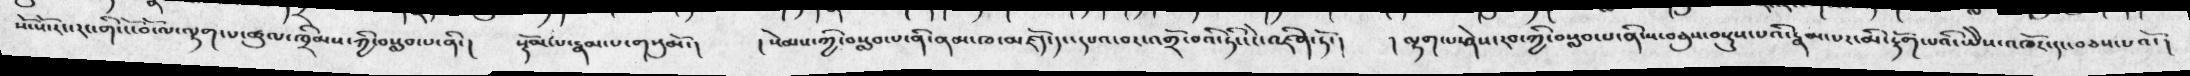སོ་སཔ་རང་གི་ངོ་བོ་ལ་ལྷག་པ་ཚུལ་ཁྲིམས་ཀྱི་བསླབ་པ་ནི་།    སྡོམ་པ་རྣམ་པ་གསུམོ་།   ། སེམས་གྱི་བསླབ་པ་ནི་ནམ་ཁ་མཛོད་དང་དཔའ་བར་འགྲོ་བའི་ཏིང་ངེ་འཛིན་ཏོ་།   ། ལྷག་པ་ཤེས་རབ་གྱི་བསླབ་པ་ནི་ས་བཅུས་བསྡུས་པའི་རྣམ་པར་མི་རྟོག་པའི་ཡེེས་འཁོར་དང་བཅས་པའོ་།
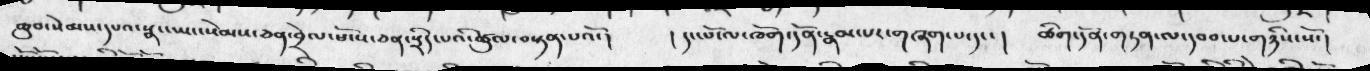ཆུབ་སེམས་དཔའ་སྣང་ཡང་སེམས་ཅན་བྲེལ་ཕོངས་ཅན་སྲིད་པའི་ཚུལ་བསྟན་པའོ་།  ། དང་པོ་ལ་ཁོག་དོན་རྣམ་པར་གཞག་པ་དང་།   ཚིག་དོན་གཏན་ལ་དབབ་པ་གནིས་སོ་།
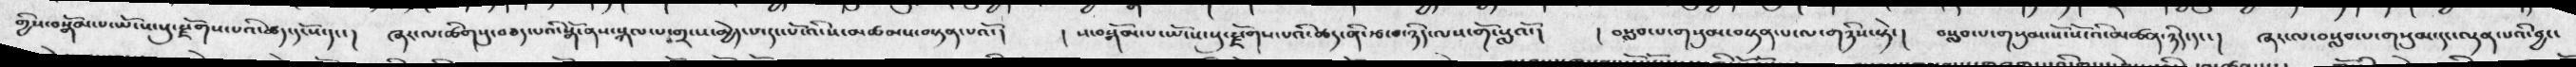གྱིས་བསྒོམ་པ་ཡོངས་སུ་རྫོགས་པའི་ཚད་དངོས་དང་།   ཞར་ལ་ཚིགསུ་བཅད་པའི་སྒོ་ནས་སྐལ་པ་གྲངས་མྱེད་པ་དང་པོ་འི་ས་མཚམས་བསྟན་པའོ་།   ། ས་བསྒོམ་པ་ཡོངས་སུ་རྫོགས་པའི་ཚད་ནི་རྩ་བ་ཉིད་ལས་གོ་སླའོ་།  ། བསླབ་པ་གསུམ་བསྟན་པ་ལ་གཉིས་སྟེ་།   བསླབ་པ་གསུམ་སོ་སོ་འི་མཚན་ཉིད་དང་།  ཞར་ལ་བསླབ་པ་གསུམ་དང་ལྡན་པའི་བྱ་་
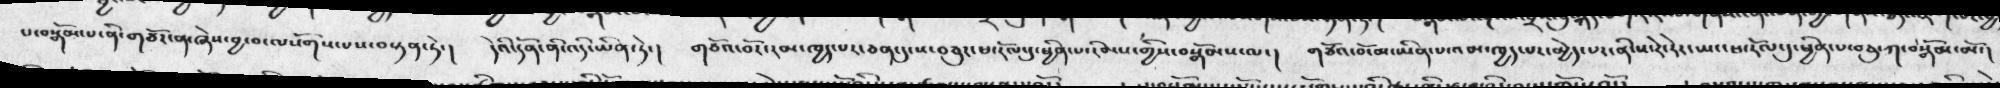པ་བསྒོམ་པ་ནི་གཙོར་ན་ཞེས་བྱ་བ་ལསོགས་པས་བསྟན་ཏེ་།  དེའི་དོན་ནི་འདི་ཡིན་ཏེ་།  གཙོ་བོར་རམ་ཁྱད་པར་ཅན་དུ་ས་བཅུར་ཕ་རོལ་དུ་ཕྱིན་པ་རིམས་གྱིས་བསྒོམས་ལ་།   གཙོ་བོ་མ་ཡིན་པའམ་ཁྱད་པར་མྱེད་པར་ནི་ས་རེ་རེར་ཡང་ཕ་རོལ་དུ་ཕྱིན་པ་བཅུ་ཀ་བསྒོམ་མོ་།
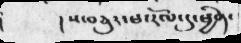།ས་བཅུར་ཕ་རོལ་དུ་ཕྱིན་
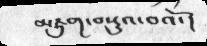མཇུག་བསྡུའ་བའོ་།
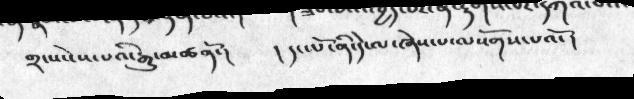གྲངས་ངེས་པའི་རྒྱུ་མཚནོ་།  ། དང་པོ་ནི་དེ་ལ་ཞེས་པ་ལསོགས་པའོ།
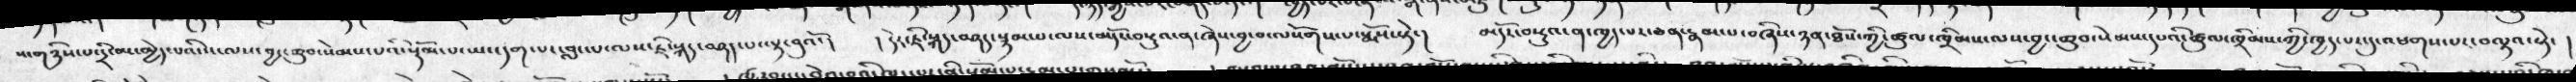ས་གཉིས་པ་དྲི་མ་མྱེད་པའི་ས་ལས་བྱང་ཆུབ་སེམས་པའི་སྡོམ་པ་ཡང་དག་པར་བླང་པ་ལས་ཇི་སྐད་བཤད་པ་ལྟ་བུའོ་།  ། དེར་ཇི་སྐད་བཤད་སྙམ་པ་ལས་མདོར་བསྡུས་ན་ཞེས་བྱ་བ་ལསོགས་པ་སྨོས་སྟེ་།  མདོར་བསྡུའ་ན་ཁྱད་པར་ཅན་རྣམ་པ་བཞིས་ཉན་ཐོས་ཀྱི་ཚུལ་ཁྲིམས་ལས་བྱང་ཆུབ་སེམས་དཔའི་ཚུལ་ཁྲིམས་ཀྱི་ཁྱད་པར་དུ་འཕགས་པར་བལྟའ་སྟེ་  །
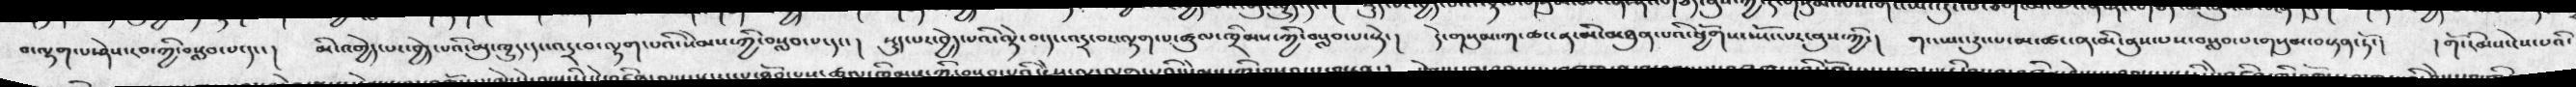བ་ལྷག་པ་ཤེས་རབ་ཀྱི་བསླབ་པ་དང་།  མི་འགྱེད་པར་བྱེད་པའི་མུ་ཁྱུད་དང་འདྲ་བ་ལྷག་པའི་སེམས་ཀྱ་བསླབ་པ་དང་།  སྡུད་པར་བྱེད་པའི་ལྟེ་བ་དང་འདྲ་བར་ལྷག་པ་ཚུལ་ཁྲིམས་ཀྱི་བསླབ་པ་སྟེ་།  དེ་གསུམ་ཀ་ཚང་ན་མི་མཐུན་པའི་ཕྱོགས་སྤོང་པར་ནུས་ཀྱི་།  གང་ཡང་རུང་པ་མ་ཚང་ན་མི་ནུས་པས་བསླབ་པ་གསུམ་བསྟན་ཏོ་།  ། གོ་རིམ་ངེས་པའི་
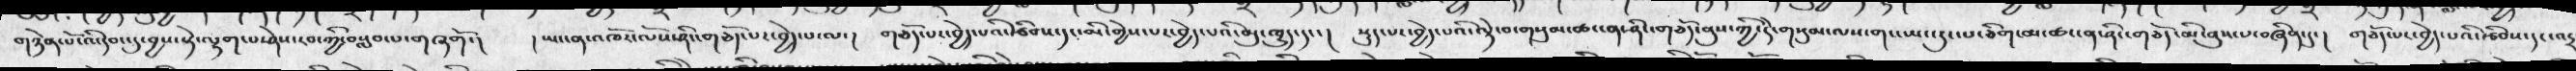གཉེན་པོ་འི་དབང་དུ་བྱས་སྟེ་ལྷག་པ་ཤེས་རབ་ཀྱི་བསླབ་པ་གཞགོ་།  ། ཡང་ན་འཁོར་ལོས་ཤིང་གཅོད་པར་བྱེད་པ་ལ་། གཅོད་པར་བྱེད་པའི་རྩིབས་དང་མི་གྱེས་པར་བྱེད་པའི་མུ་ཁྱུད་དང་།  སྡུད་པར་བྱེད་པའི་ལྟེ་བ་གསུམ་ཚང་ན་ནི་གཅོད་ནུས་ཀྱི་དེ་གསུམ་ལས་གང་ཡང་རུང་པ་ཅིག་མ་ཚང་ན་ནི་གཅོད་མི་ནུས་པ་བཞིན་དུ་།   གཅོད་པར་བྱེད་པའི་རྩིབས་དང་འདྲ
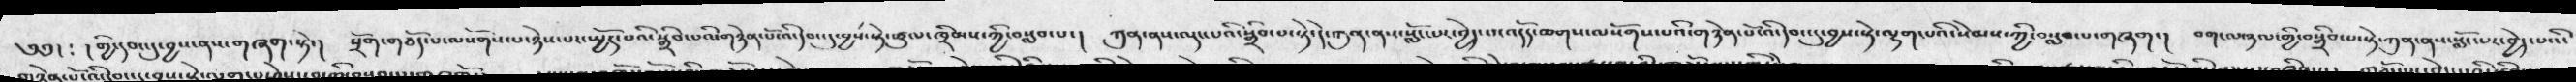༄༅།  ༴  ། གྱི་དབང་དུ་བྱས་ནས་གཞག་སྟེ་།   སྲོག་གཅོད་པ་ལ་ལསོགས་པ་ཉེས་པར་སྤྱོད་པའི་སྒྲིབ་པའི་གཉེན་པོ་འི་དབང་དུ་བྱས་སྟེ་ཚུལ་ཁྲིམས་ཀྱི་བསླབ་པ་།  ཀུན་ནས་ལྡང་པའི་སྒྲིབ་པ་སྟེ་དེ་ཀུན་ནས་སློང་པར་བྱེད་པ་འདོད་ཆགས་ལསོགས་པའི་གཉེན་པོ་འི་དབང་དུ་བྱས་སྟེ་ལྷག་པའི་སེམས་ཀྱི་བསླབ་པ་གཞག་།   བག་ལ་ཉལ་གྱི་བསྒྲིབ་པ་སྟེ་ཀུན་ནས་སློང་པར་བྱེད་པའི་
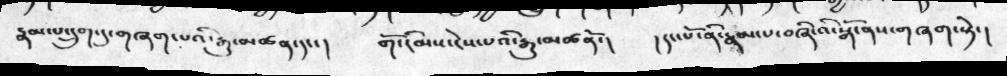རྣམ་པ་དྲུག་དུ་གཞག་པའི་རྒྱུ་མཚན་དང་།  གོ་རིམས་ངེས་པའི་རྒྱུ་མཚནོ་།  ། དང་པོ་ནི་རྣམ་པ་བཞིའི་སྒོ་ནས་གཞག་སྟེ་།
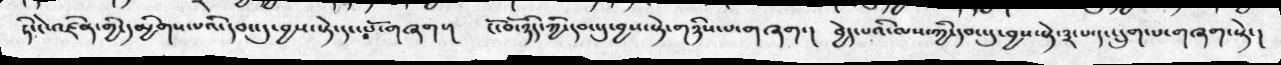ཏི་ངེ་འཛིན་གྱི་དམྱིགས་པའི་དབང་དུ་བྱས་སྟེ་དང་པོ་གཞག་།  ངོ་བོ་ཉིད་ཀྱི་དབང་དུ་བྱས་སྟེ་གཉིས་པ་གཞག་།  བྱེད་པའི་ལས་ཀྱི་དབང་དུ་བྱས་སྟེ་༣་པ་དང་དྲུག་པ་གཞག་སྟེ་།
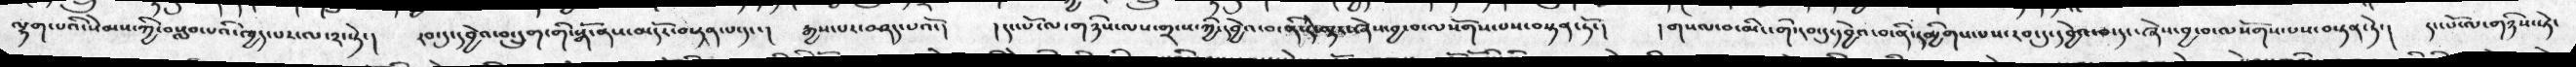ལྷག་པའི་སེམས་ཀྱི་བསླབ་པའི་ཁྱད་པར་ལ་༢་སྟེ་།  རབ་དུ་དབྱེ་འ་བ་དྲུག་གི་སྒོ་ནས་མདོར་བསྟན་པ་དང་། རྒྱས་པར་བཤད་པའོ་།  །དང་པོ་ལ་གཉིས་ལས་གྲ་ས་ཀྱི་དབྱེ་བ་ནི་དེ་ལྟར་ཞེས་བྱ་བ་ལསོགས་པས་བསྟན་ཏོ་།   །གསལ་བ་མིང་གི་རབ་དུ་དབྱེའ་བ་ནི་དམྱིགས་པས་རབ་དུ་དབྱེའ་བ་དང་ཞེས་བྱ་བ་ལསོགས་པས་བསྟན་ཏེ་།  དང་པོ་ལ་གཉིས་ཏེ་
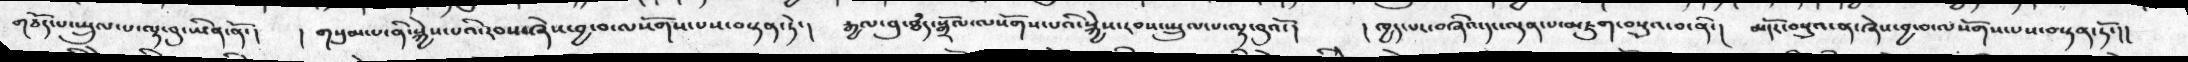གཅོད་པ་སྤྲུལ་པ་ལྟ་བུ་ཡིན་ནོ་།   ། གསུམ་པ་ནི་སྐྱེས་པའི་རབས་ཞེས་བྱ་བ་ལསོགས་པས་བསྟན་ཏེ་།  རྒྱལ་བུ་ཐཾད་སྒྲོལ་ལསོགས་པའི་སྐྱེས་རབས་སྤྲུལ་པ་ལྟ་བུ་།   ། ཁྱད་པར་བཞིའ་དང་ལྡན་པ་མཇུག་བསྡུ་བ་ནི་།  མདོར་བསྡུའ་ན་ཞེས་བྱ་བ་ལསོགས་པས་བསྟན་ཏོ་།།
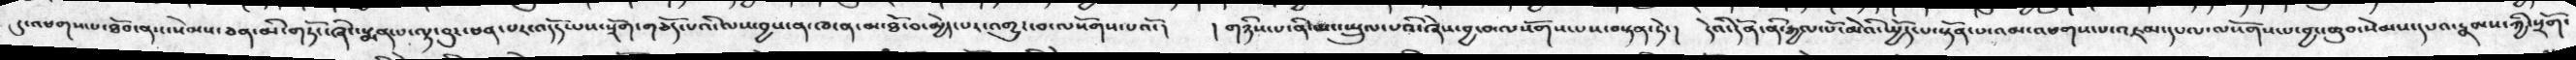དུ་འཕགས་པ་ཐོབ་ནས་སེམས་ཅན་མི་གཏོང་ཞིང་སྨན་པ་ལྟ་བུར་ཕན་པར་འདོད་པས་སྲོག་གཅོད་པའི་ལས་བྱས་ན་ཁ་ན་མ་ཐོ་བ་མྱེད་པར་འགྱུར་བ་ལསོགས་པའོ་།  ། གཉིས་པ་ནི་ཆང་སྤྲུལ་པའི་ཞེས་བྱ་བ་ལསོགས་པས་བསྟན་ཏེ་།  དེའི་དོན་ནི་རྒྱལ་པོ་མེའི་སྤྱོད་པ་སྟོན་པ་འམ་འཕགས་པ་འཇམ་དཔལ་ལསོགས་པ་བྱང་ཆུབ་སེམས་དཔའ་རྣམས་ཀྱི་སྲོག་
